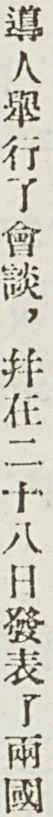導人舉行了會談，並在二十八日發表了兩國
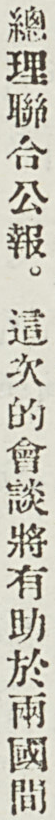總理聯合公報。這次的會談將有助於兩國間
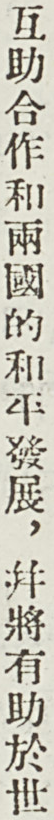互助合作和兩國的和平發展，並將有助於世
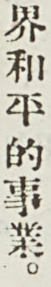界和平的事業。
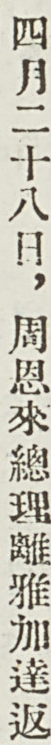四月二十八日，周恩來總理離雅加達返
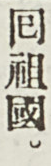囘祖國。
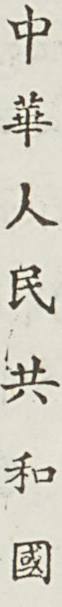中 華 人 民 共 和 國
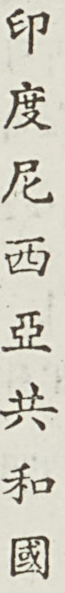印 度 尼 西 亞 共 和 國
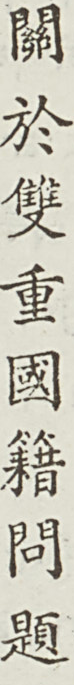關 於 雙 重 國 籍 問 題
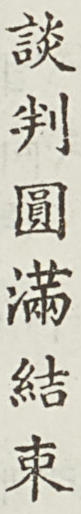談 判 圓 滿 結 束
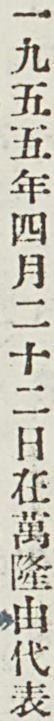一九五五年四月二十二日在萬隆由代表
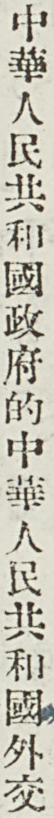中華人民共和國政府的中華人民共和國外交
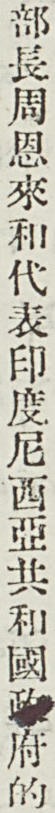部長周恩來和代表印度尼西亞共和國政府的
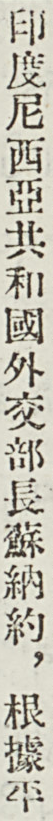印度尼西亞共和國外交部長蘇納約，根據平
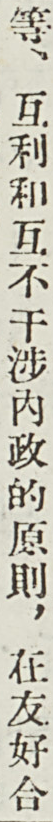等、互利和互不干涉內政的原則，在友好合
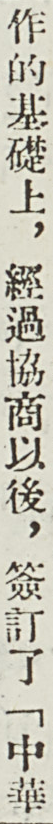作的基礎上，經過協商以後，簽訂了「中華
